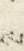ས་
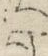པ་
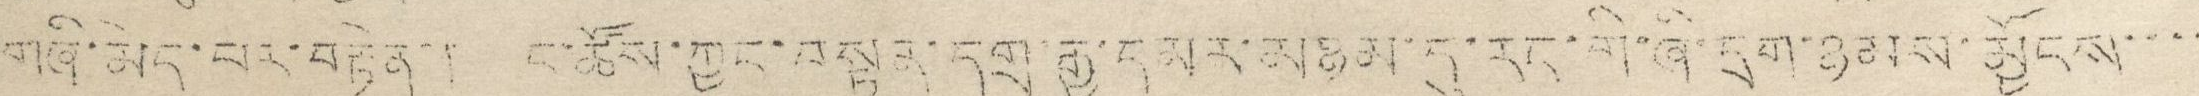གཞི་མེད་པར་བརྟེན་། ང་ཚོས་ཀྱང་བསྟན་དགྲ་རྒྱ་དམར་མཉམ་དུ་རང་གི་ཞི་དྲག་ཉམས་མྱོངས་་་་
